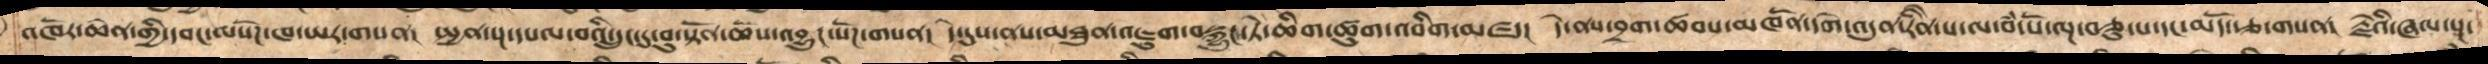འཁོར་ཆེན་གྱི་དབང་ལསོཌ་ཁ་ཡར་གསན།  སྤྱན་སྔ་དཔལ་བའི་དྲུང་དུ་བུ་སྟོན་ཆོས་འབྱུང་སོཌ་གསན།  དེ་དུས་ནས་མཐུན་འཇུག་བསྐྱུང་ཏེ་ཆིག་ཚུག་འབིག་མཛད།  དེ་ནས་བྲག་ཚབས་མཁནོ་དགེ་འདུན་རིནེ་པ་ལ་བཾ་པོ་ལྔ་བཅུ་པ་དང་མདོ་རྩ་བ་གསན།  རྗེའི་ཞལ་སྔ་
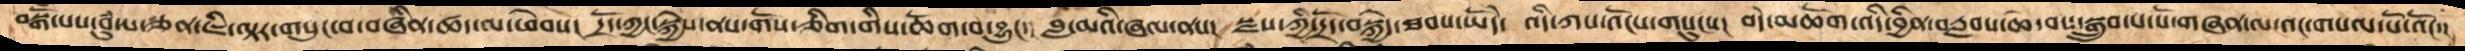བསྒོཾ་པས་བུཾ་པ་ཅན་ཇི་ལྟར་གསུང་བ་བཞིན་ཚད་ལ་ཕེབས།  དྲོད་ཀྱང་སྐྱེས་ནས་གོས་ཅིག་གིས་ཆོག་བ་བྱུང་།  བླ་མའི་ཞལ་ནས། སྫས་ཀྱི་དྲོད་བསྐྱེད་ཐབས་ཡོདེ༴  འདི་ཀས་འོངས་གསུངས།  བདེ་མཆོག་འདི་བྱིན་རླབས་ཆེ་བས་སྒྲུབ་པ་པོ་གཞན་ལ་འང་གསལ་པོ་འོང་།
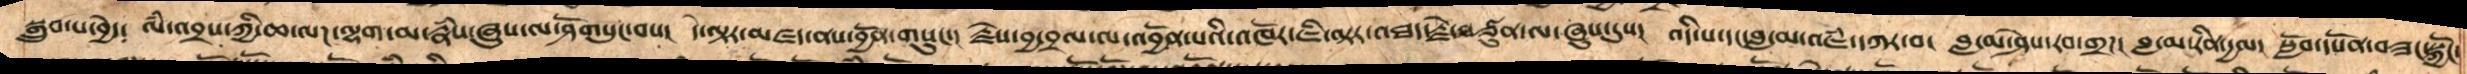སྒྲུབ་པ་བྱེད་  ལཾ་འབྲས་ཀྱི་ཆ་ལཌ་ལྷག་མ་རྣཾས་ཞུས་ལ་ཤོགསུང་བས།  དེ་ལྟར་མཛད་ནས་བྱོན་གསུང་།  རྗེས་བྱ་བྲལ་ལ་འབྱོན་པའི་འཁོར་ཇི་ལྟར་འཐད་རྗེ་བཙུན་ལ་ཞུས་དུས།  འདི་པ་དང་བླ་མ་འཇཾ་དཀར་བ།  བླ་མ་ཤེས་རབ་གྲཌ།  བླ་མ་རིན་དྱལ།  སློབ་དཔོན་བཟང་སྐྱོང་།
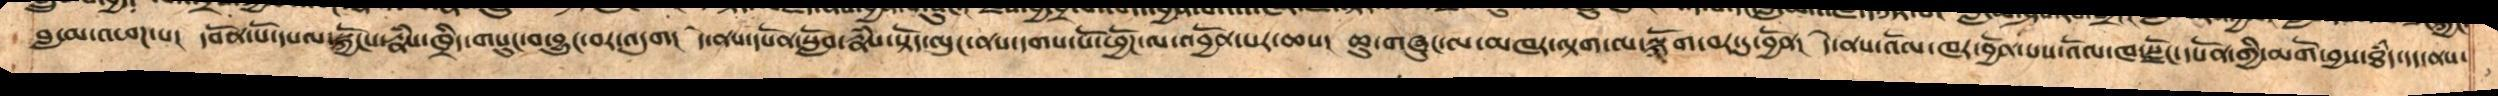བླ་མ་འཕཌ་པ།  དབོན་པོ་དཔལ་སྐྱོངས་རྣཾས་ཁྲིད་གསུང་བ་བྱུང་བར་འདུག།  དེ་ནས་དཔོན་སློབ་རྣཾས་སྟོད་ལུང་ནས་དགས་པོ་ཕྱོཌ་ལ་འབྱོན་པར་ཆས།  ཆུ་གཞུང་ལ་མཁར་ལྟག་ལ་ལྐོག་བར་དུ་བྱོན།  དེ་ནས་འོལ་ཁར་བྱོན་པས་འོལ་ཁ་སྫོང་དཔོན་གྱི་མགོ་བྱས་ཐཾད་དད་ནས་
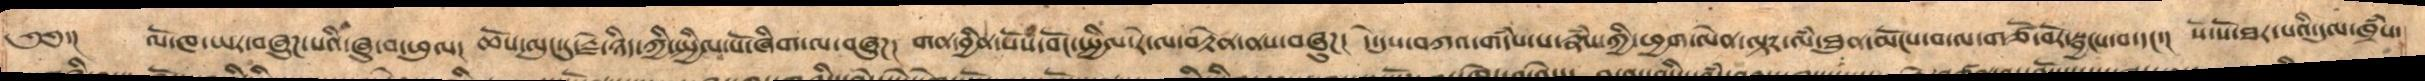༄༅་།    ལོ་ཁ་ཡར་བཞུཌ་པའི་ཞུ་བ་ཕུལ།  ཆོས་ལུང་དུ་རྗེ་ཉིད་ཀྱི་སྤྱིལ་པོ་ཞིག་ལ་བཞུཌ།  གན་བྱིན་པོས་བོང་སྤྱིལ་རེ་ལ་བརྟེན་ནས་བཞུཌ།  དེ་དུས་བཀའ་གདཾས་པ་རྣཾས་ཀྱི་ཕྱག་ལེན་ལྟར་ལཾ་ཐུན་མོང་བ་ལ་གཙོ་བོར་སྦྱངས་བ་དང་།  སོ་སོ་ཐར་པའི་དུལ་ཁྲཾས་
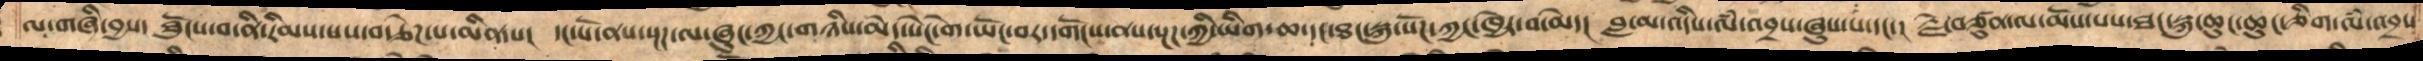ལ་གཞི་བྱས།  ཐོུངས་བ་ནི་རིམ་པས་བརྩེཌ་པ་མིན་པ།  དང་པོ་ནས་སྔཌ་ལ་ཞུཌ་ཀྱང་གཉིས་མེད་སེང་གེ་ཡོང་བར་དགོངས་ནས་སྔཌ་ཀྱི་ཡིག་ཆ་དང་ཐང་སྐུ་སོཌ་ཀྱང་ཁྱེར་བ་མེད།  བླ་མ་འདིས་ལཾ་འབྲས་ཞུས་པ་དང་།  རྗེ་བཙུན་ལ་མོས་པས་ཐང་སྐུ་ཆུང་ཆུང་ཅིག་ལཾ་འབྲས
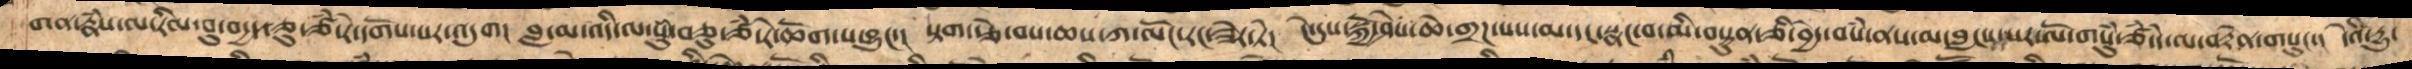གན་རྣཾས་ལ་རིལ་བུ་བདྱད་ཅུ་ཙཾ་རེ་དགོས་པར་འདུག།  བླ་མ་འདི་ལ་སུཾ་ཅུ་ཙཾ་རེས་ཆོག་པར་བྱུང་།  སྟག་རྩེ་བས་ཆས་ཀ་ལོང་རང་ཟེར་ཏེ།  དེ་དུས་སྐྱོ་ཤེས་ཆེ་གྲཌ་པས་མ་དང་སྣང་བ་མི་བསྟུན་ཅི་བྱེད་བསཾ་ནས་མ་བླངས་པར་ལོ་གསུཾ་ཙཾ་དེ་ལ་བརྟེན་གསུང་།  དེའི་དྱུ་
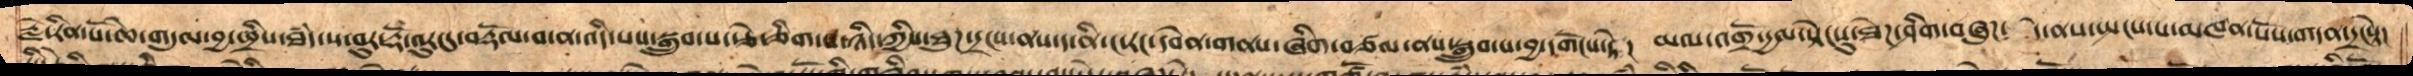རྗེ་རིན་པོ་ཆེ་གདུལ་བྱ་ཕྲིས་ཐཾད་ས་བུར་རྡོ་འུར་དུ་བརྡོལ་བ་ན་འདི་པས་སྒྲུབ་པ་རྩེ་ཅིག་པ་ཉིད་ཀྱིས་ཐུཌ་དྲངས་ནས་ད་ནི་ང་རང་དབེན་གནས་ཞིག་བཙལ་ནས་སྒྲུབ་པ་བྱ་དགོངས་ཏེ།  མལ་གྲོ་དྱལ་སྟེང་དུ་ཐེཌ་ཤིག་བཞུཌ།  དེ་ནས་སྤངས་ས་མཁན་པོས་གདན་དྲངསྟེ།
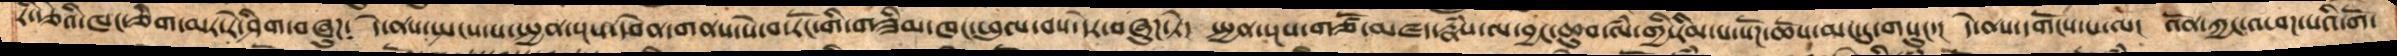རི་རྩེའི་ཁང་ཅིག་མར་རེ་ཤིག་བཞུཌ༴  དེ་ནས་སྤངས་པ་སྤྱན་སྔས་དབེན་གནས་པེ་བ་རོང་གི་གཟིམ་ཁང་ཕུལ་བས་དེར་བཞུཌ་ཏེ།  སྤྱན་སྔས་གཙོ་མཛད་རྣཾས་ལ་བྱང་ཆུབ་ལཾ་གྱི་རིམ་པ་སོཌ་ཆོས་མང་དུ་གསུང་།  དེ་ནས་དགོངས་པ་ལ།  འོན་ཀྱང་འཕཌ་པའི་གོ་
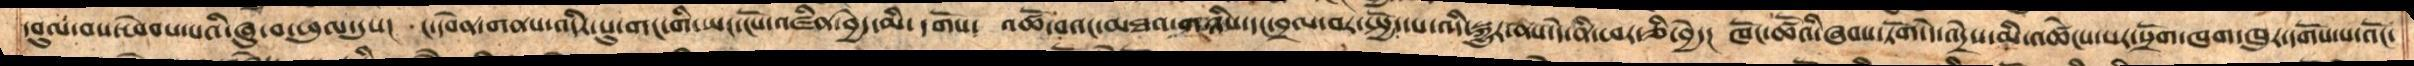དབུལ་བས་ཕེབས་པའི་ཞུ་བ་ཕུལ་དུས།  ང་དབེན་གནས་འདིར་སུ་གང་གི་ཡང་ངོས་འཛིན་བྱེད་མི་དགོས།  འཚོ་བའང་མཐའ་གཉིས་དང་བྲལ་བར་སྤྱོད་པ་འདི་སྐྱུར་ནས་དེ་ནི་ཕར་ཅི་བྱེད།  ཁོང་ཚོའི་ཞབས་ཏོག་དེ་འདྲེས་མི་འཚེངས་པར་སྲོག་ཁག་ཁུར་དགོས་པ་འོང་
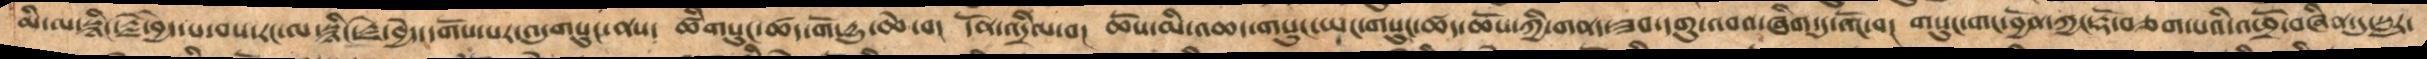མི་ལ་སྙིང་རྗེ་བྱེད་པ་བས་རང་ལ་སྙིང་རྗེ་བྱེད་དགོས་པར་འདུགསུང་ནས།  ཚིགསུང་ཚད་གོ་དྱུ་ཆེ་བ།  དོན་འདྲིལ་བ།  ཆོས་མི་འཆད་གསུང་ཡང་གསུང་ཚད་ཆོས་ཀྱི་གནད་ཟབ་དགུ་འབའ་ཞིག་དུ་འོང་བ།  གསུང་གང་བྱོན་ཀྱང་རྡོ་བཅག་པའི་འཕྲོ་བཞིན་དུ་སླར་
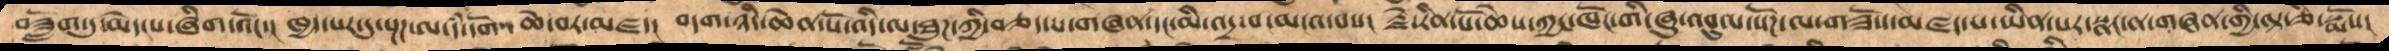བཟློག་དུ་མེད་པ་ཞིག་འོང་།  ཁྱད་པར་དུ་སྔཌ་ལ་དཾ་དགོས་ཆེ་བར་མཛད།  བདག་ཉིད་ཆེན་པོ་འདི་ལ་ཐུཌ་ཀྱི་བཅད་པ་གཞན་དང་མི་འདྲ་བ་མངའ་བས།  རྗེ་རིན་པོ་ཆེས་ཀྱང་ཁོང་གི་ཞུ་འབུལ་སོཌ་ལ་གཟོས་མཛད་པ་ཡིན་པར་སྣང་ན་གཞན་གྱི་ལྟ་ཅི་སྨོས།
